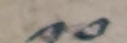༡༠
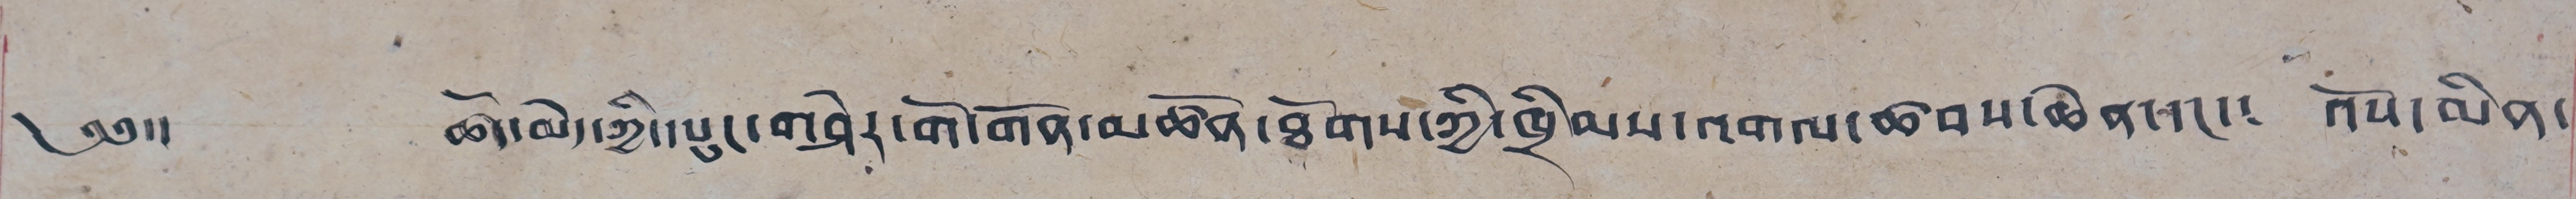༄༅།། ཚོད་མེད་ཀྱི་དཔུང་གཤེར་གོ་གོན་མཚོན་ཐོགས་ཀྱི་ཁྲིམས་འགལ་ཚབས་ཆེན་དང་༴ འོས་མིན་
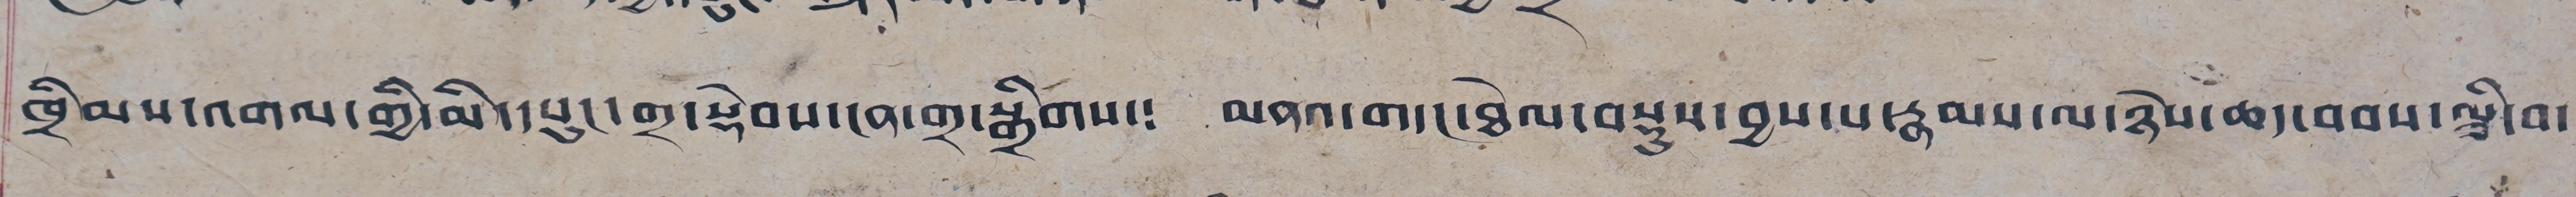ཁྲིམས་འགལ་གྱི་མི་དཔུང་གྲ་སྡེབས་ངན་གྲ་སྒྲིགས་༴ མནའ་གདང་ཐེལ་བསྡུས་བྱས་པ་རྣམས་ལ་ཉེས་ཆད་ཕབས་ལྕི་བ་
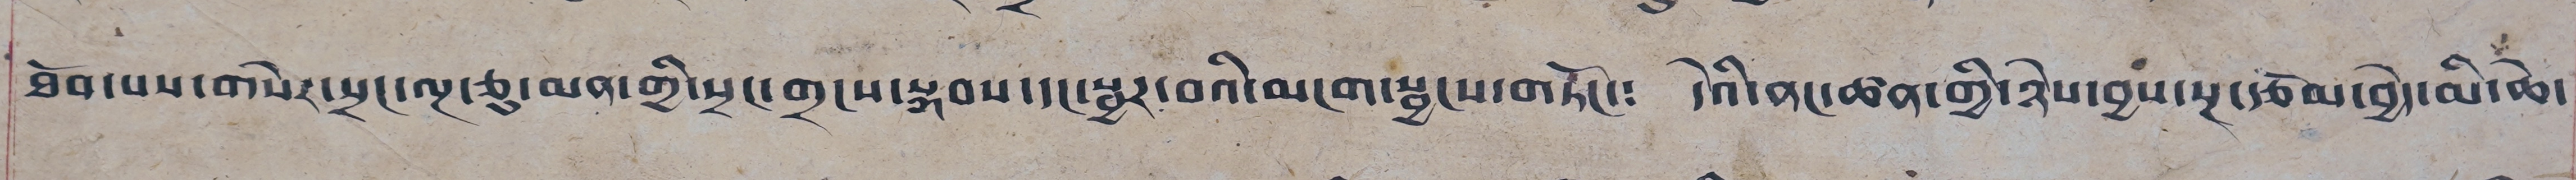ཐེབ་པས་གསེར་སྲང་ལྔ་ཅུ་མན་གྱི་སྲང་གྲངས་སྐབས་དང་སྦྱར་བའི་མངག་སྦྱངས་གཏོང་༴ དེའི་ནང་ཚན་གྱི་ཉེས་བྱས་སྔ་ཙམ་བྱེད་མི་ཆེ་
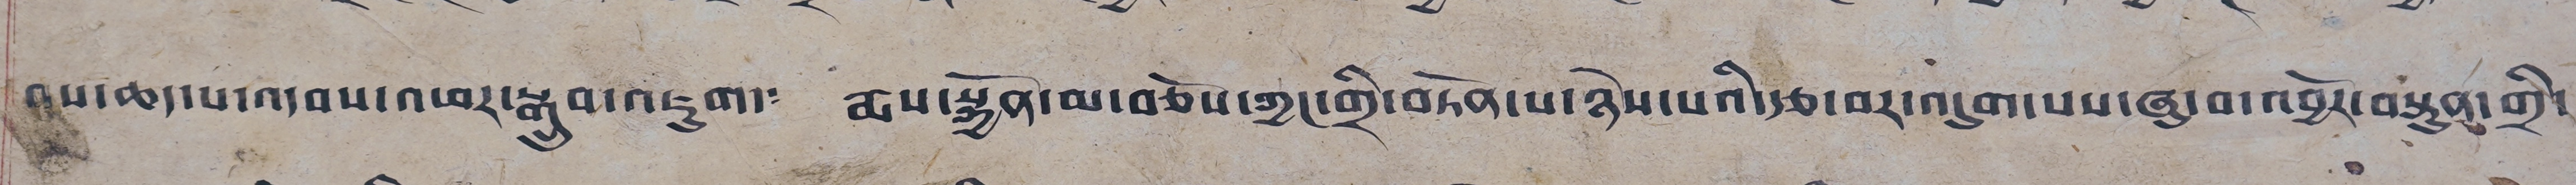བས་ཆད་པ་འདབས་འཕར་སྒྲུབ་འཇུག་༴ རྨས་སྐྱོན་མ་བཅོས་ཀྱང་གྲི་བཏོན་པ་ཉེས་པའི་རྩ་བར་འདུག་པས་ཞུ་བ་འབྱོར་བསྟུན་གྲི་
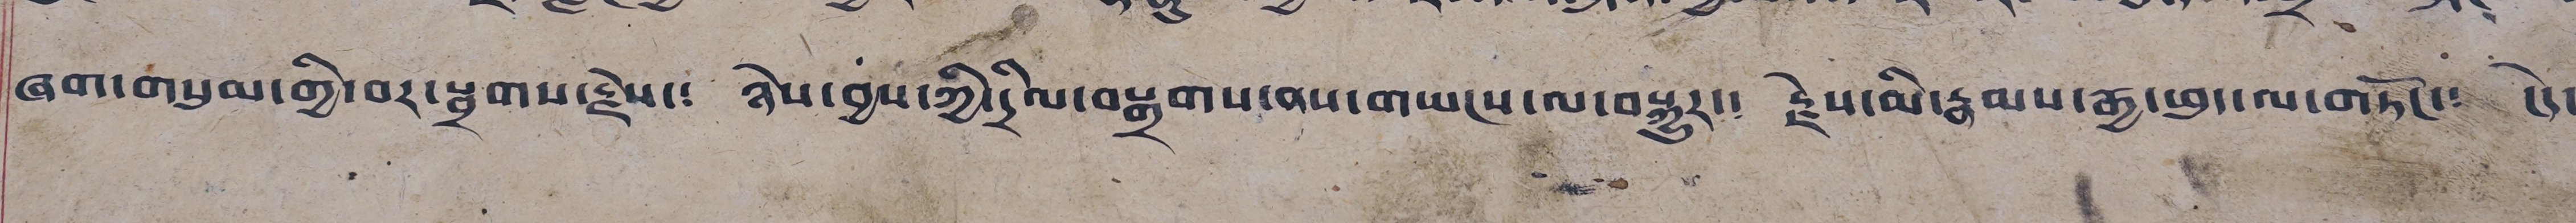ཞག་གསུམ་གྱི་བར་སྦྲགས་རྗེས་༴ ཉེས་བྱས་ཀྱི་དྲིལ་བསྒྲགས་ནས་གཡངས་ལ་བསྐྱུར་༴ རྗེས་མི་རྣམས་རྒྱ་ཕུད་ལ་གཏོང་༴ ངེད་
